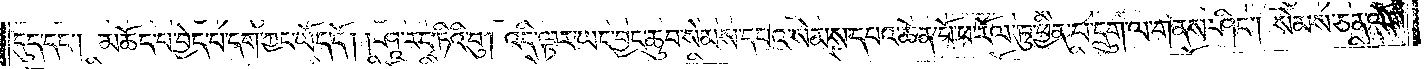དུད་དང༌། མཆོད་པ་བྱེད་པ་དག་ཀྱང་ཡོད་དོ། །ཤཱ་ར་དྭ་ཏིའི་བུ། འདི་ལྟར་ཡང་བྱང་ཆུབ་སེམས་དཔའ་སེམས་དཔའ་ཆེན་པོ་ཕ་རོལ་ཏུ་ཕྱིན་པ་དྲུག་ལ་གནས་ཤིང༌། སེམས་ཅན་ལོག་
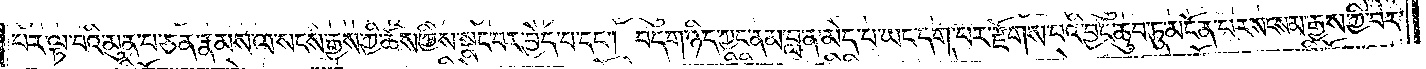པར་ལྟ་བའི་མུན་པ་ཅན་རྣམས་ལ་སངས་རྒྱས་ཀྱི་ཆོས་ཀྱིས་སྣང་བར་བྱེད་པ་དང༌། བདག་ཉིད་ཀྱང་ནམ་བླ་ན་མེད་པ་ཡང་དག་པར་རྫོགས་པའི་བྱང་ཆུབ་ཏུ་མངོན་པར་སངས་མ་རྒྱས་ཀྱི་བར་
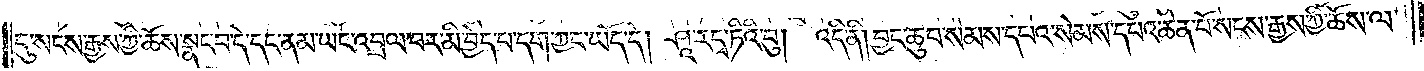དུ་སངས་རྒྱས་ཀྱི་ཆོས་སྣང་བ་དེ་དང་ནམ་ཡང་འབྲལ་བར་མི་བྱེད་པ་དག་ཀྱང་ཡོད་དེ། ཤཱ་ར་དྭ་ཏིའི་བུ། འདི་ནི། བྱང་ཆུབ་སེམས་དཔའ་སེམས་དཔའ་ཆེན་པོ་སངས་རྒྱས་ཀྱི་ཆོས་ལ་
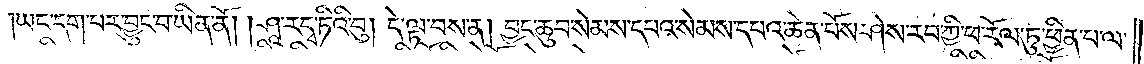ཡང་དག་པར་བྱུང་བ་ཡིན་ནོ། །ཤཱ་ར་དྭ་ཏིའི་བུ། དེ་ལྟ་བས་ན། བྱང་ཆུབ་སེམས་དཔའ་སེམས་དཔའ་ཆེན་པོས་ཤེས་རབ་ཀྱི་ཕ་རོལ་ཏུ་ཕྱིན་པ་ལ་
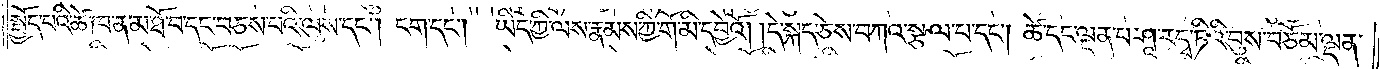སྤྱོད་པའི་ཚེ་ཁ་ན་མ་ཐོ་བ་དང་བཅས་པའི་ལུས་དང༌། ངག་དང༌། ཡིད་ཀྱི་ལས་རྣམས་ཀྱི་གོ་མི་དབྱེའོ། །དེ་སྐད་ཅེས་བཀའ་སྩལ་པ་དང༌། ཚེ་དང་ལྡན་པ་ཤཱ་ར་དྭ་ཏིའི་བུས་བཅོམ་ལྡན་
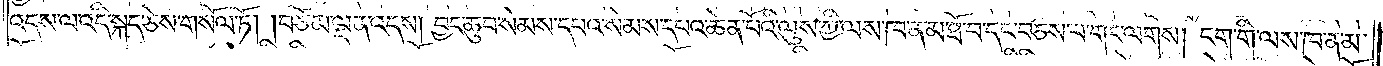འདས་ལ་འདི་སྐད་ཅེས་གསོལ་ཏོ། །བཅོམ་ལྡན་འདས། བྱང་ཆུབ་སེམས་དཔའ་སེམས་དཔའ་ཆེན་པོའི་ལུས་ཀྱི་ལས་ཁ་ན་མ་ཐོ་བ་དང་བཅས་པ་གང་ལགས། ངག་གི་ལས་ཁ་ན་མ་
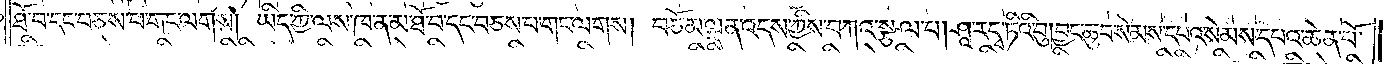ཐོ་བ་དང་བཅས་པ་གང་ལགས། ཡིད་ཀྱི་ལས་ཁ་ན་མ་ཐོ་བ་དང་བཅས་པ་གང་ལགས། བཅོམ་ལྡན་འདས་ཀྱིས་བཀའ་སྩལ་པ། ཤཱ་ར་དྭ་ཏིའི་བུ། བྱང་ཆུབ་སེམས་དཔའ་སེམས་དཔའ་ཆེན་པོ་
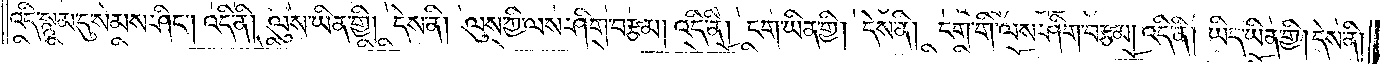འདི་སྙམ་དུ་སེམས་ཤིང༌། འདི་ནི། ལུས་ཡིན་གྱི། དེས་ནི། ལུས་ཀྱི་ལས་ཤིག་བརྩམ། འདི་ནི། ངག་ཡིན་གྱི། དེས་ནི། ངག་གི་ལས་ཤིག་བརྩམ། འདི་ནི། ཡིད་ཡིན་གྱི། དེས་ནི།
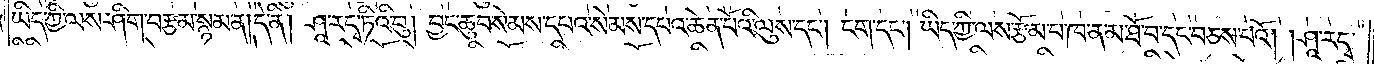ཡིད་ཀྱི་ལས་ཤིག་བརྩམ་སྙམ་ན། དེ་ནི། ཤཱ་ར་དྭ་ཏིའི་བུ། བྱང་ཆུབ་སེམས་དཔའ་སེམས་དཔའ་ཆེན་པོའི་ལུས་དང༌། ངག་དང༌། ཡིད་ཀྱི་ལས་རྩོམ་པ་ཁ་ན་མ་ཐོ་བ་དང་བཅས་པའོ། །ཤཱ་རདྭ་
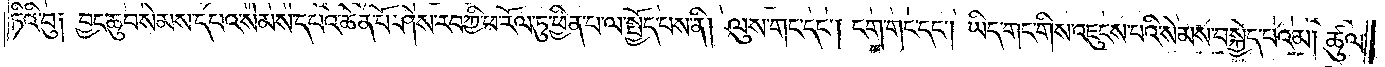ཏིའི་བུ། བྱང་ཆུབ་སེམས་དཔའ་སེམས་དཔའ་ཆེན་པོ་ཤེས་རབ་ཀྱི་ཕ་རོལ་ཏུ་ཕྱིན་པ་ལ་སྤྱོད་པས་ནི། ལུས་གང་དང༌། ངག་གང་དང༌། ཡིད་གང་གིས་འཇུངས་པའི་སེམས་བསྐྱེད་པའམ། ཚུལ་
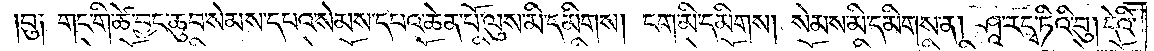བུ༑ གང་གི་ཚེ་བྱང་ཆུབ་སེམས་དཔའ་སེམས་དཔའ་ཆེན་པོ་ལུས་མི་དམིགས། ངག་མི་དམིགས། སེམས་མི་དམིགས་ན། ཤཱ་ར་དྭ་ཏིའི་བུ། དེའི་
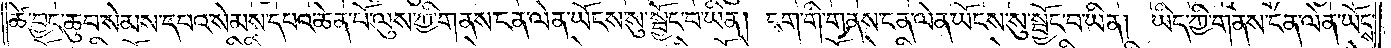ཚེ་བྱང་ཆུབ་སེམས་དཔའ་སེམས་དཔའ་ཆེན་པོ་ལུས་ཀྱི་གནས་ངན་ལེན་ཡོངས་སུ་སྦྱོང་བ་ཡིན། ངག་གི་གནས་ངན་ལེན་ཡོངས་སུ་སྦྱོང་བ་ཡིན། ཡིད་ཀྱི་གནས་ངན་ལེན་ཡོངས་
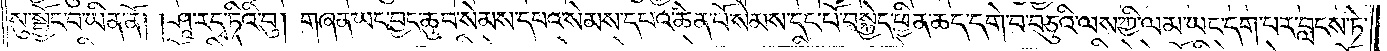སུ་སྦྱོང་བ་ཡིན་ནོ། །ཤཱ་རདྭ་ཏིའི་བུ། གཞན་ཡང་བྱང་ཆུབ་སེམས་དཔའ་སེམས་དཔའ་ཆེན་པོ་སེམས་དང་པོ་བསྐྱེད་ཕྱིན་ཆད་དགེ་བ་བཅུའི་ལས་ཀྱི་ལམ་ཡང་དག་པར་བླངས་ཏེ་
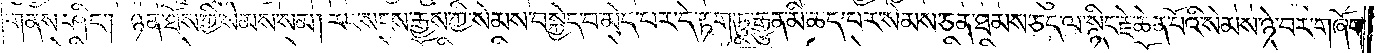གནས་ཤིང༌། ཉན་ཐོས་ཀྱི་སེམས་སམ། རང་སངས་རྒྱས་ཀྱི་སེམས་བསྐྱེད་བ་མེད་པར་དེ་རྟག་ཏུ་རྒྱུན་མི་ཆད་པར་སེམས་ཅན་ཐམས་ཅད་ལ་སྙིང་རྗེ་ཆེན་པོའི་སེམས་ཉེ་བར་གཞོག་
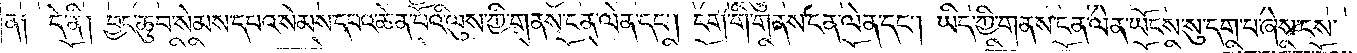ན༑ དེ་ནི། བྱང་ཆུབ་སེམས་དཔའ་སེམས་དཔའ་ཆེན་པོའི་ལུས་ཀྱི་གནས་ངན་ལེན་དང༌། ངག་གི་གནས་ངན་ལེན་དང༌། ཡིད་ཀྱི་གནས་ངན་ལེན་ཡོངས་སུ་དག་པ་ཞེས་ངས་
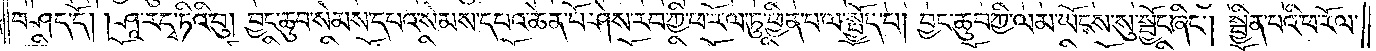བཤད་དོ། །ཤཱ་ར་དྭ་ཏིའི་བུ། བྱང་ཆུབ་སེམས་དཔའ་སེམས་དཔའ་ཆེན་པོ་ཤེས་རབ་ཀྱི་ཕ་རོལ་ཏུ་ཕྱིན་པ་ལ་སྤྱོད་པ། བྱང་ཆུབ་ཀྱི་ལམ་ཡོངས་སུ་སྦྱོང་ཞིང༌། སྦྱིན་པའི་ཕ་རོལ་
